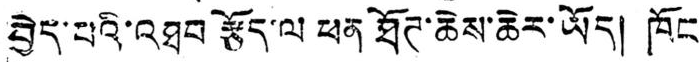བྱེད་པའི་འཐབ རྩོད་ལ ཕན ཐོཊ་ཆེས་ཆེར་ཡོད། ཁོང་
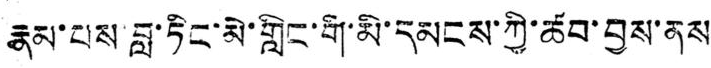རྣམ་པས་བླ་ཏིང་མེ་གླིང་གི་མི་དམངས་ཀྱི་ཚབ་བྱས་ནས
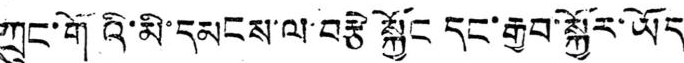ཀྲུང་གོའི་མི་དམངས་ལ་བརྩེ སྐྱོང དང་རྒྱབ་སྐྱོར་ཡོད་
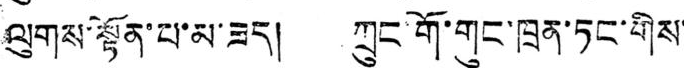ལུགས་སྟོན་པ་མ་ཟད། ཀྲུང་གོ་གུང་ཁྲན་ཏང་གིས་་
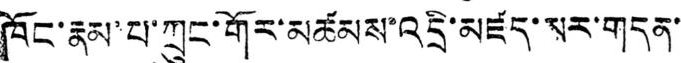ཁོང་རྣམ་པ་ཀྲུང་གོར་མཚམས་འདྲི་མཛད་མར་གདན་་
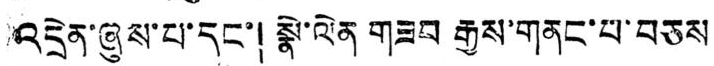འདྲེན་ཞུས་པ་དང་། སྣེ་ལེན གཟབ རྒྱས་གནང་པ་བཅས
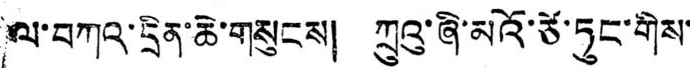ལ་བཀའ་དྲིན་ཆེ་གསུངས། ཀྲུའུ་ཞི་མའོ་ཙེ་ཏུང་གིས་་
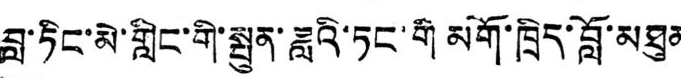བླ་ཏིང་མེ་གླིང་གི་སྤུན་ཟླའི་ཏང་གི མགོ་ཁྲིད་བློ་མཐུན
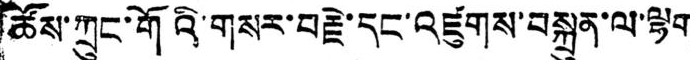ཚོས་ཀྲུང་གོའི་གསར་བརྗེ་དང་འཛུགས་བསྐྲུན་ལ་ལྷག
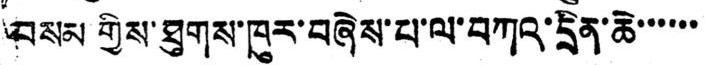བསམ་གྱིས་ཐུགས་ཁུར་བཞེས་པ་ལ་བཀའ་དྲིན་ཆེ་་་་་་
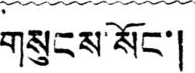གསུངས་སོང་།
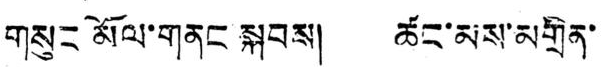གསུང མོལ་གནང སྐབས། ཚང་མས་མགྲིན་
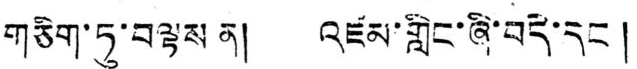གཅིག་ཏུ་བལྟས ན། འཛམ་གླིང་ཞི་བདེ་དང །
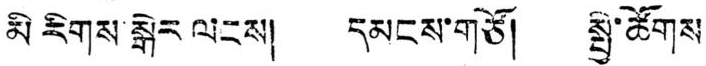མི རིགས་སྒེར ལངས། དམངས་གཙོ། སྤྱི་ཚོགས
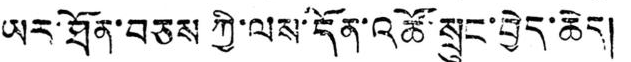ཡར་ཐོན་བཅས ཀྱི་ལས་དོན་འཚོ་སྲུང་བྱེད་ཆེད།
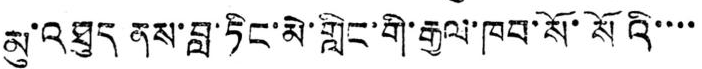མུ་འཐུད ནས་བླ་ཏིང་མེ་གླིང་གི་རྒྱལ་ཁབ་སོ་སོའི་་་་
